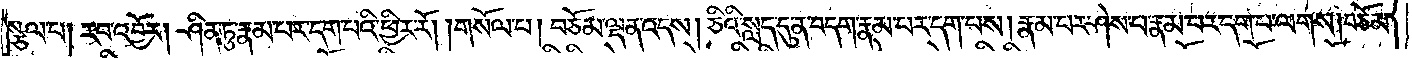སྩལ་པ། རབ་འབྱོར། ཤིན་ཏུ་རྣམ་པར་དག་པའི་ཕྱིར་རོ། །གསོལ་པ། བཅོམ་ལྡན་འདས། ཅིའི་སླད་དུ་ན་བདག་རྣམ་པར་དག་པས། རྣམ་པར་ཤེས་པ་རྣམ་པར་དག་པ་ལགས། བཅོམ་
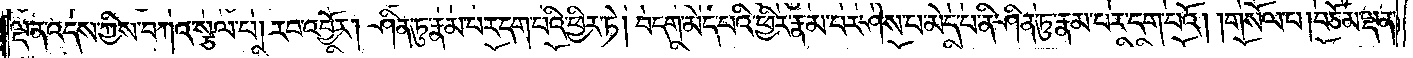ལྡན་འདས་ཀྱིས་བཀའ་སྩལ་པ། རབ་འབྱོར། ཤིན་ཏུ་རྣམ་པར་དག་པའི་ཕྱིར་ཏེ། བདག་མེད་པའི་ཕྱིར་རྣམ་པར་ཤེས་པ་མེད་པ་ནི་ཤིན་ཏུ་རྣམ་པར་དག་པའོ། །གསོལ་པ། བཅོམ་ལྡན་
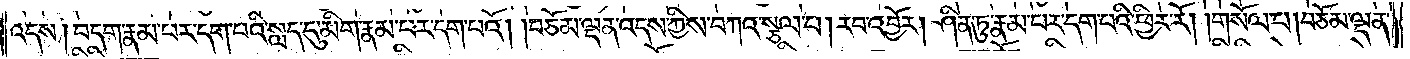འདས། བདག་རྣམ་པར་དག་པའི་སླད་དུ་མིག་རྣམ་པར་དག་པའོ། །བཅོམ་ལྡན་འདས་ཀྱིས་བཀའ་སྩལ་པ། རབ་འབྱོར། ཤིན་ཏུ་རྣམ་པར་དག་པའི་ཕྱིར་རོ། །གསོལ་པ། བཅོམ་ལྡན་
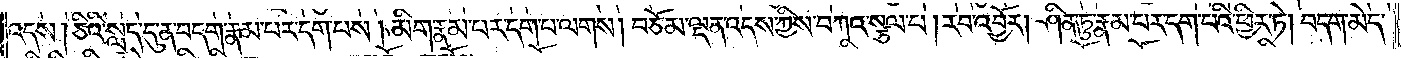འདས། ཅིའི་སླད་དུ་ན་བདག་རྣམ་པར་དག་པས། མིག་རྣམ་པར་དག་པ་ལགས། བཅོམ་ལྡན་འདས་ཀྱིས་བཀའ་སྩལ་པ། རབ་འབྱོར། ཤིན་ཏུ་རྣམ་པར་དག་པའི་ཕྱིར་ཏེ། བདག་མེད་
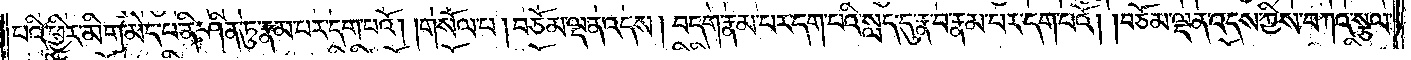པའི་ཕྱིར་མིག་མེད་པ་ནི་ཤིན་ཏུ་རྣམ་པར་དག་པའོ། །གསོལ་པ། བཅོམ་ལྡན་འདས། བདག་རྣམ་པར་དག་པའི་སླད་དུ་རྣ་བ་རྣམ་པར་དག་པའོ། །བཅོམ་ལྡན་འདས་ཀྱིས་བཀའ་སྩལ་
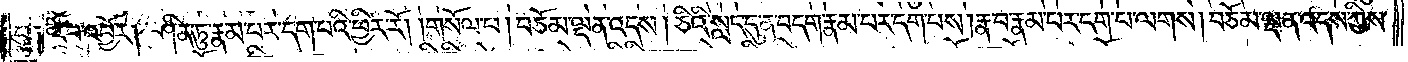པ༑ རབ་འབྱོར། ཤིན་ཏུ་རྣམ་པར་དག་པའི་ཕྱིར་རོ། །གསོལ་པ། བཅོམ་ལྡན་འདས། ཅིའི་སླད་དུ་ན་བདག་རྣམ་པར་དག་པས། རྣ་བ་རྣམ་པར་དག་པ་ལགས། བཅོམ་ལྡན་འདས་ཀྱིས་
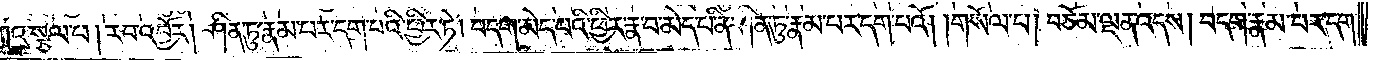བཀའ་སྩལ་པ། རབ་འབྱོར། ཤིན་ཏུ་རྣམ་པར་དག་པའི་ཕྱིར་ཏེ། བདག་མེད་པའི་ཕྱིར་རྣ་བ་མེད་པ་ནི་ཤིན་ཏུ་རྣམ་པར་དག་པའོ། །གསོལ་པ། བཅོམ་ལྡན་འདས། བདག་རྣམ་པར་དག་
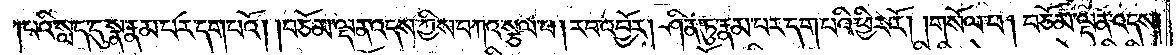པའི་སླད་དུ་སྣ་རྣམ་པར་དག་པའོ། །བཅོམ་ལྡན་འདས་ཀྱིས་བཀའ་སྩལ་པ། རབ་འབྱོར། ཤིན་ཏུ་རྣམ་པར་དག་པའི་ཕྱིར་རོ། །གསོལ་པ། བཅོམ་ལྡན་འདས།
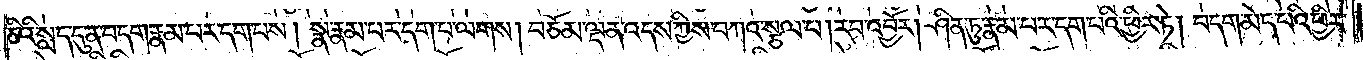ཅིའི་སླད་དུ་ན་བདག་རྣམ་པར་དག་པས། སྣ་རྣམ་པར་དག་པ་ལགས། བཅོམ་ལྡན་འདས་ཀྱིས་བཀའ་སྩལ་པ། རབ་འབྱོར། ཤིན་ཏུ་རྣམ་པར་དག་པའི་ཕྱིར་ཏེ། བདག་མེད་པའི་ཕྱིར་
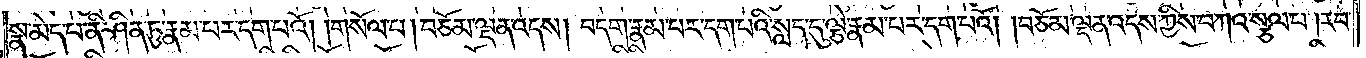སྣ་མེད་པ་ནི་ཤིན་ཏུ་རྣམ་པར་དག་པའོ། །གསོལ་པ། བཅོམ་ལྡན་འདས། བདག་རྣམ་པར་དག་པའི་སླད་དུ་ལྕེ་རྣམ་པར་དག་པའོ། །བཅོམ་ལྡན་འདས་ཀྱིས་བཀའ་སྩལ་པ། རབ་
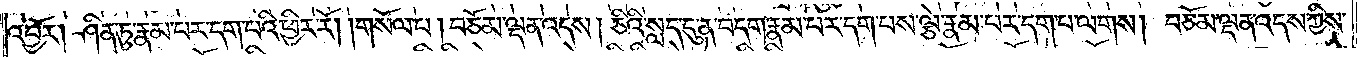འབྱོར། ཤིན་ཏུ་རྣམ་པར་དག་པའི་ཕྱིར་རོ། །གསོལ་པ། བཅོམ་ལྡན་འདས། ཅིའི་སླད་དུ་ན་བདག་རྣམ་པར་དག་པས་ལྕེ་རྣམ་པར་དག་པ་ལགས། བཅོམ་ལྡན་འདས་ཀྱིས་
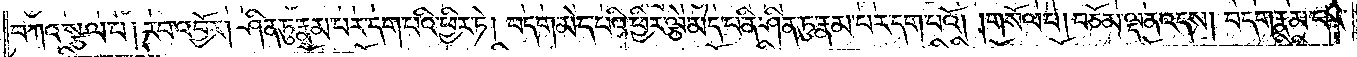བཀའ་སྩལ་པ། རབ་འབྱོར། ཤིན་ཏུ་རྣམ་པར་དག་པའི་ཕྱིར་ཏེ། བདག་མེད་པའི་ཕྱིར་ལྕེ་མེད་པ་ནི་ཤིན་ཏུ་རྣམ་པར་དག་པའོ། ། གསོལ་པ། བཅོམ་ལྡན་འདས། བདག་རྣམ་པར་
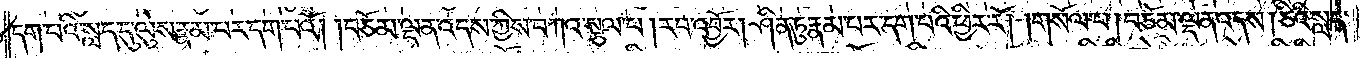དག་པའི་སླད་དུ་ལུས་རྣམ་པར་དག་པའོ། །བཅོམ་ལྡན་འདས་ཀྱིས་བཀའ་སྩལ་པ། རབ་འབྱོར། ཤིན་ཏུ་རྣམ་པར་དག་པའི་ཕྱིར་རོ། །གསོལ་པ། བཅོམ་ལྡན་འདས། ཅིའི་སླད་
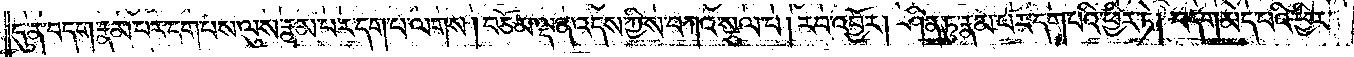དུ་ན་བདག་རྣམ་པར་དག་པས་ལུས་རྣམ་པར་དག་པ་ལགས། བཅོམ་ལྡན་འདས་ཀྱིས་བཀའ་སྩལ་པ། རབ་འབྱོར། ཤིན་ཏུ་རྣམ་པར་དག་པའི་ཕྱིར་ཏེ། བདག་མེད་པའི་ཕྱིར་
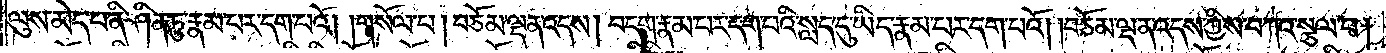ལུས་མེད་པ་ནི་ཤིན་ཏུ་རྣམ་པར་དག་པའོ། །གསོལ་པ། བཅོམ་ལྡན་འདས། བདག་རྣམ་པར་དག་པའི་སླད་དུ་ཡིད་རྣམ་པར་དག་པའོ། །བཅོམ་ལྡན་འདས་ཀྱིས་བཀའ་སྩལ་པ།
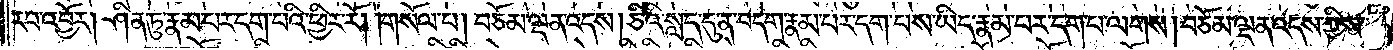རབ་འབྱོར། ཤིན་ཏུ་རྣམ་པར་དག་པའི་ཕྱིར་རོ། །གསོལ་པ། བཅོམ་ལྡན་འདས། ཅིའི་སླད་དུ་ན་བདག་རྣམ་པར་དག་པས་ཡིད་རྣམ་པར་དག་པ་ལགས། བཅོམ་ལྡན་འདས་ཀྱིས་
